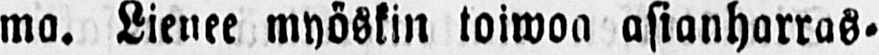ma. Lienee myöskin toiwoa asianharras-
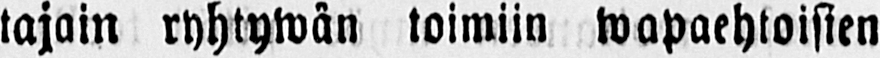tajain ryhtywän toimiin wapaehtoisien
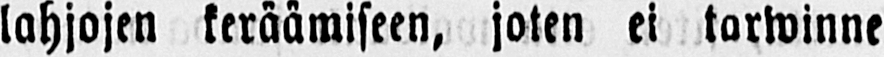lahjojen keräämiseen, joten ei tarwinne
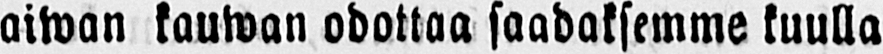aiwan kauwan odottaa saadaksemme kuulla
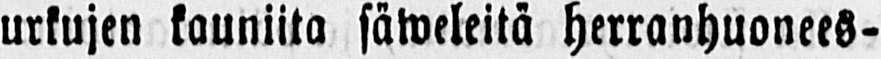urkujen kauniita säweleitä herranhuonees-
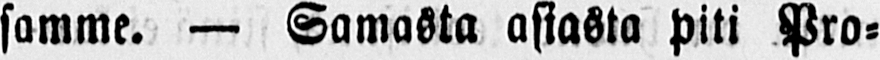samme. — Samasta asiasta piti Pro-
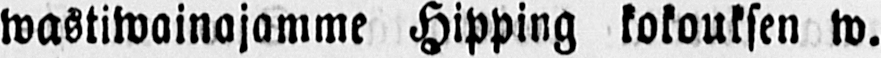wastiwainajamme Hipping kokouksen w.
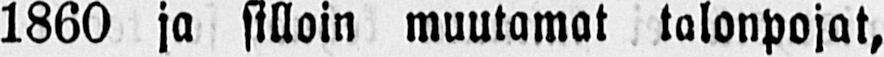1860 ja silloin muutamat talonpojat,
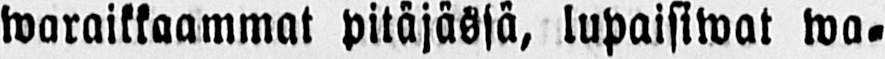waraikkaammat pitäjässä, lupaisiwat wa-
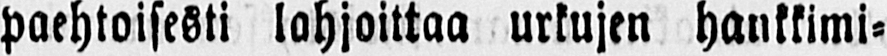paehtoisesti lahjoittaa urkujen hankkimi-
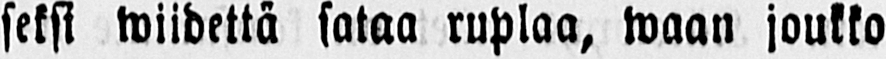seksi wiidettä sataa ruplaa, waan joukko
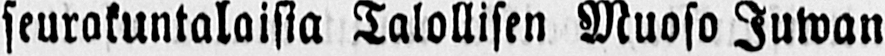seurakuntalaisia Talollisen Muoso Juwan
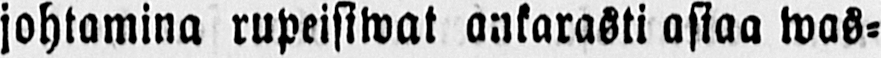johtamina rupeisiwat ankarasti asiaa was-
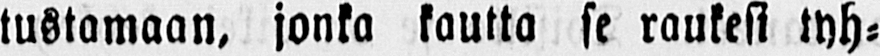tustamaan, jonka kautta se raukesi tyh-
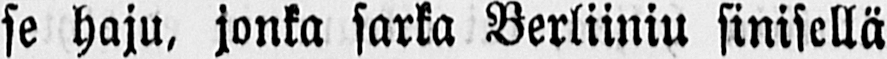se haju, jonka sarka Berliiniu sinisellä
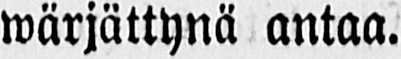wärjättynä antaa.
